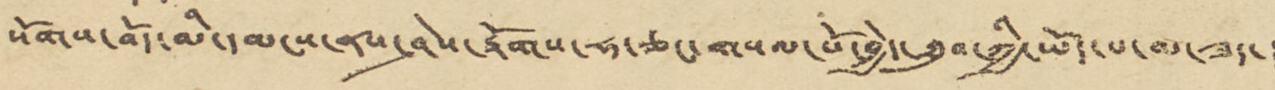སོགས་བོད་མི་དམངས་ནས་ཤེས་རྟོགས་ཧ་ཅང་གསལ་པོ་བྱེད་ཐུབ་ཀྱི་ཡོད་པ་མ་ཟད་།
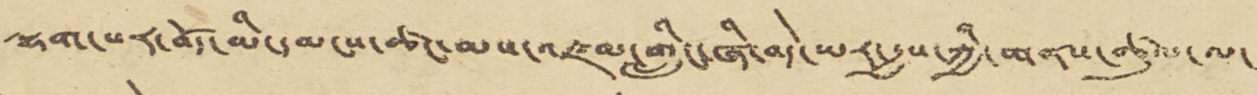ལྷག་པར་བོད་མི་དམངས་ཚང་མས་འཛམ་གླིང་ཞི་བདེ་ཡར་རྒྱས་ཀྱི་གནས་ཚུལ་ལ་
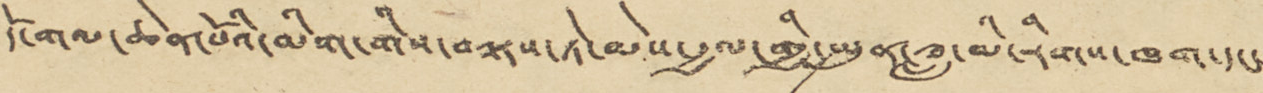དོ་གལ་ཆེན་པོའི་མིག་གིས་བལྟས་ཏེ་མེས་རྒྱལ་གྱི་སྤུན་ཟླ་མི་རིགས་ཁག་དང་
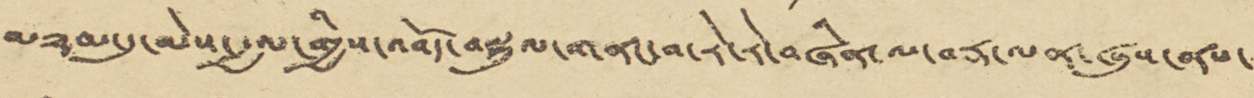མཉམ་དུ་མེས་རྒྱལ་གྱིས་འབོད་བསྐུལ་གནང་བ་རེ་རེ་བཞིན་ལ་བར་ལན་ཞུས་ནས་
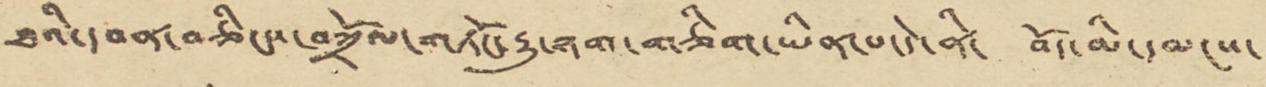ཐའི་དབན་བཅིངས་བཀྲོལ་གཏོང་རྒྱུ་ཉག་གཅིག་ཡིན་པ་དེ་ནི་ བོད་མི་དམངས་
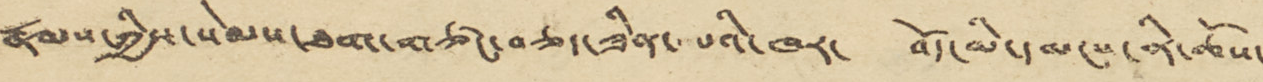རྣམས་ཀྱིས་སེམས་ཐག་གཙང་བཅད་ཟིན་པའི་ཁར་ བོད་མི་དམངས་ནི་ཆོས་
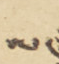ལ་
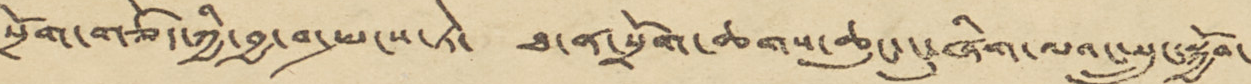སྲོག་གཅོད་ཀྱི་བྱ་བ་སྤངས་ཏེ་ ཐ་ན་སྲོག་ཆགས་ཆུང་ངུ་ཞིག་ལའང་སྲུང་སྐྱོབ་
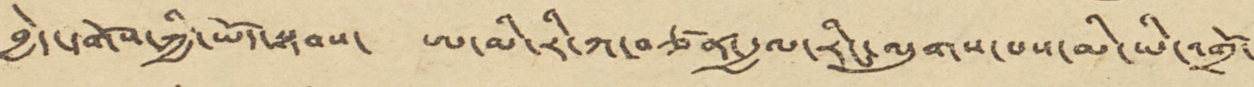བྱེད་དགོས་ཀྱི་ཡོད་སྟབས་ ཨ་མི་རི་ཀ་བཙན་རྒྱལ་རིང་ལུགས་པས་མི་ཡི་འགྲོ་
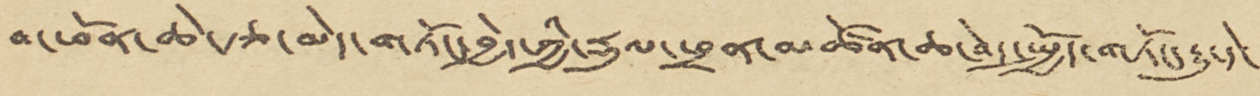བ་ཕོན་ཆེ་རྩ་མེད་གཏོང་བྱེད་ཀྱི་རྡུལ་ཕྲན་མཚོན་ཆ་བེད་སྤྱོད་གཏོང་རྒྱུ་དེ་
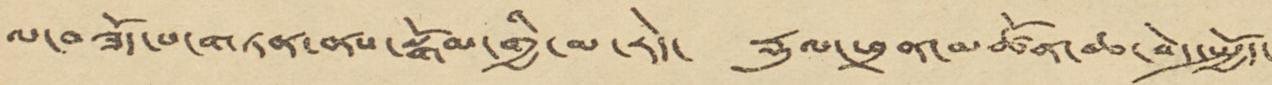ལ་བཟོད་པ་གཏན་ནས་སྒོམ་གྱི་མ་རེད་ རྡུལ་ཕྲན་མཚོན་ཆ་བེད་སྤྱོད་
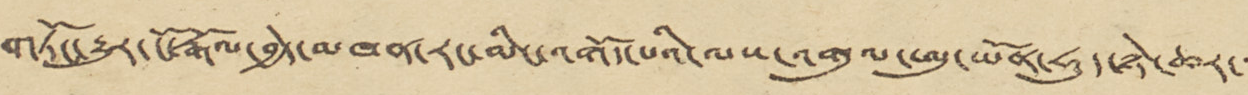གཏོང་རྒྱུར་ངོ་རྒོལ་བྱེད་མཁན་རང་མིང་འགོད་པའི་ལས་འགུལ་ཨུ་ཡོན་ཧུད་ཉེ་ཆར་་་
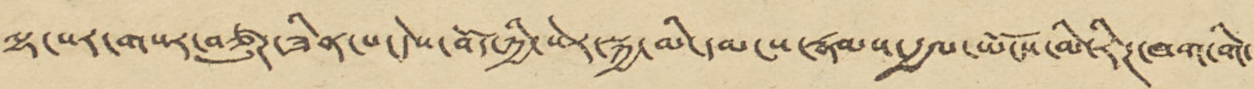ལྷ་སར་གསར་བཙུཊ་ཟིན་པ་དེས་བོད་ཀྱི་སེར་སྐྱ་མི་དམངས་རྣམས་རྒྱལ་ཡོངས་མི་རིཊ་ཁག་གི་
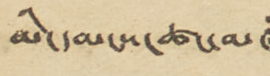མི་དམངས་ཚང་མ་
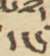དང་
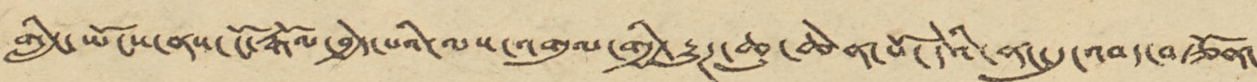གླིང་ཡོངས་ནས་ངོ་རྒོལ་བྱེད་པའི་ལས་འགུལ་གྱི་རྒྱུཊ་ཆུ་ཆེན་པོ་དེའི་ནང་དུ་འབད་བརྩོན་
